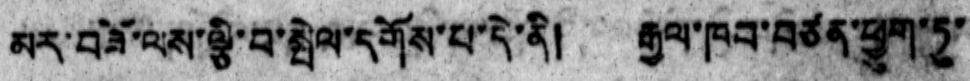མར་བཟོ་ལས་ལྕི་བ་སྤེལ་དགོས་པ་དེ་ནི། རྒྱལ་ཁབ་བཙན་ཕྱུག་ཏུ་
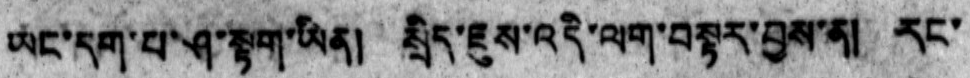ཡང་དག་པ་ཤ་སྟག་ཡིན། སྲིད་ཇུས་འདི་ལག་བསྟར་བྱས་ན། རང་
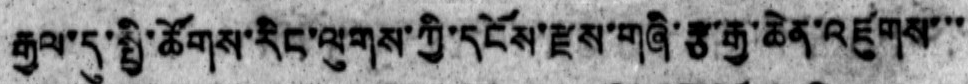རྒྱལ་དུ་སྤྱི་ཚོགས་རིང་ལུགས་ཀྱི་དངོས་རྫས་གཞི་རྩ་རྒྱ་ཆེན་འཛུགས་་་
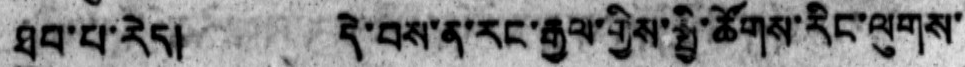ཐུབ་པ་རེད།  དེ་བས་ན་རང་རྒྱལ་གྱིས་སྤྱི་ཚོགས་རིང་ལུགས་
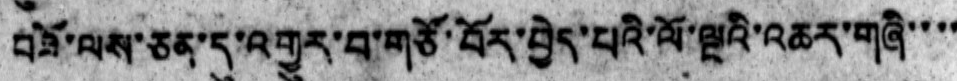བཟོ་ལས་ཅན་དུ་འགྱུར་བ་གཙོ་བོར་བྱེད་པའི་ལོ་ལྔའི་འཆར་གཞི་་་་
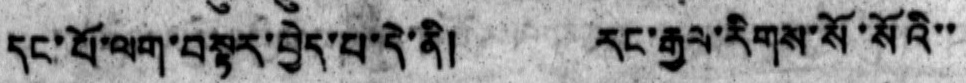དང་པོ་ལག་བསྟར་བྱེད་པ་དེ་ནི། རང་རྒྱལ་རིགས་སོ་སོའི་་
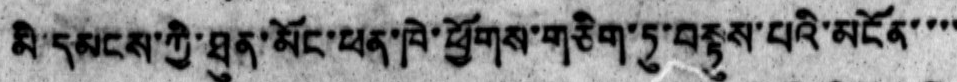མི་དམངས་ཀྱི་ཐུན་མོང་ཕན་ཁེ་ཕྱོགས་གཅིག་ཏུ་བསྟུས་པའི་མངོན་་་་
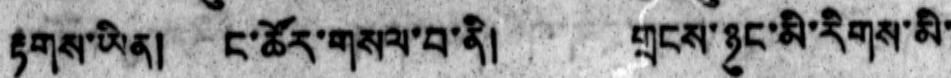རྟགས་ཡིན། ང་ཚོར་གསལ་བ་ནི། གྲངས་ཉུང་མི་རིགས་མི་
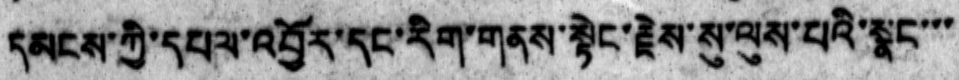དམངས་ཀྱི་དཔལ་འབྱོར་དང་རིག་གནས་སྟེང་རྗེས་སུ་ལུས་པའི་སྣང་་་
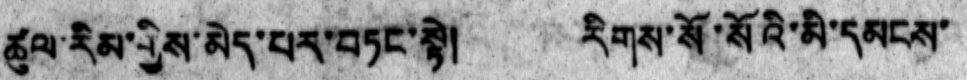ཚུལ་རིམ་གྱིས་མེད་པར་བཏང་སྟེ། རིགས་སོ་སོའི་མི་དམངས་
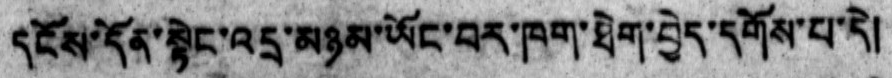དངོས་དོན་སྟེང་འདྲ་མཉམ་ཡོང་བར་ཁག་ཐེག་བྱེད་དགོས་པ་དེ།
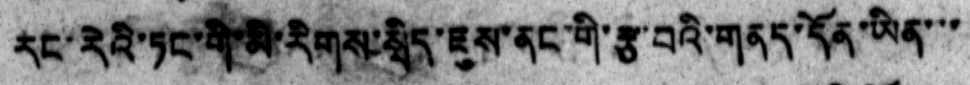རང་རེའི་ཏང་གི་མི་རིགས་སྲིད་ཇུས་ནང་གི་རྩ་བའི་གནད་དོན་ཡིན་་་
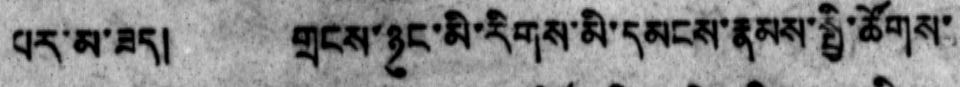པར་མ་ཟད།  གྲངས་ཉུང་མི་རིགས་མི་དམངས་རྣམས་སྤྱི་ཚོགས་
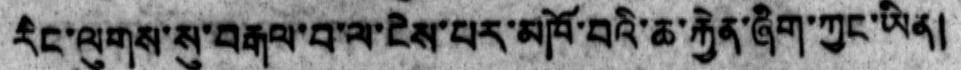རིང་ལུགས་སུ་བརྒལ་བ་ལ་ངེས་པར་མཁོ་བའི་ཆ་རྐྱེན་ཞིག་ཀྱང་ཡིན།
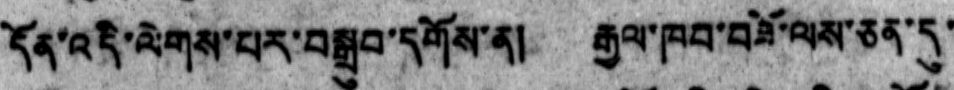དོན་འདི་ལེགས་པར་བསྒྲུབ་དགོས་ན། རྒྱལ་ཁབ་བཟོ་ལས་ཅན་དུ་
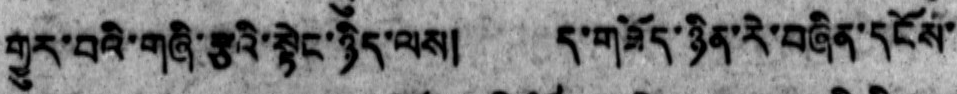གྱུར་བའི་གཞི་རྩའི་སྟེང་ཉིད་ལས། ད་གཟོད་ཉིན་རེ་བཞིན་དངོས་
